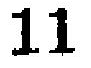11
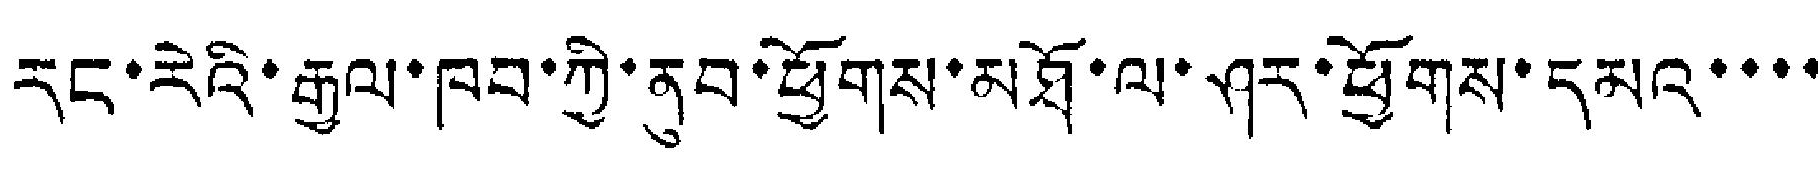རང་རེའི་རྒྱལ་ཁབ་ཀྱི་ནུབ་ཕྱོགས་མཐོ་ལ་ཤར་ཕྱོགས་དམའ་་་་
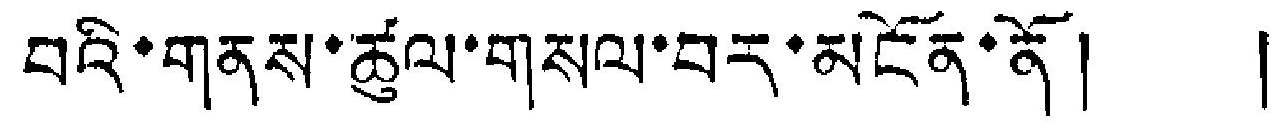བའི་གནས་ཚུལ་གསལ་བར་མངོན་ནོ། །
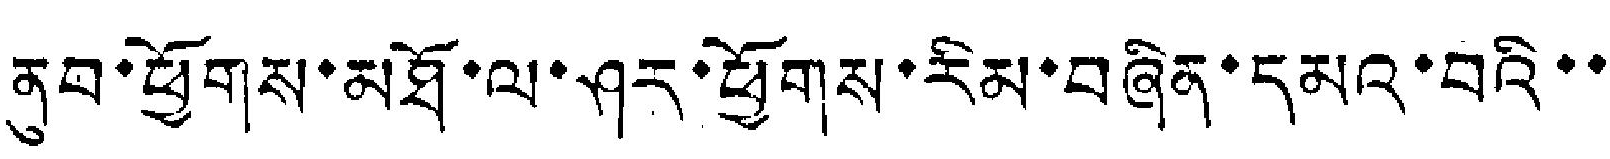ནུབ་ཕྱོགས་མཐོ་ལ་ཤར་ཕྱོགས་རིམ་བཞིན་དམའ་བའི་་
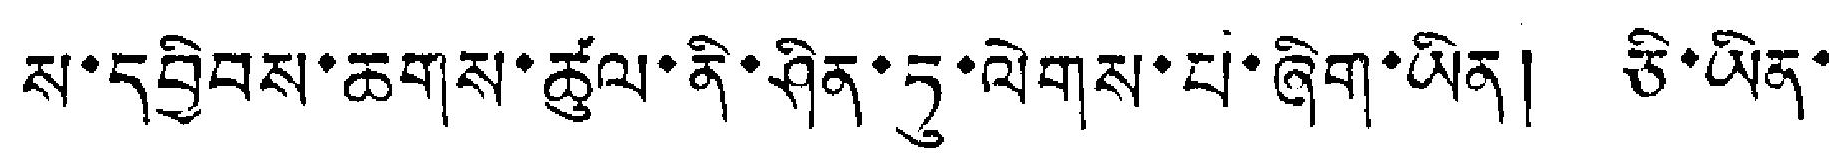ས་དབྱིབས་ཆགས་ཚུལ་ནི་ཤིན་ཏུ་ལེགས་པ་ཞིག་ཡིན། ཅི་ཡིན་
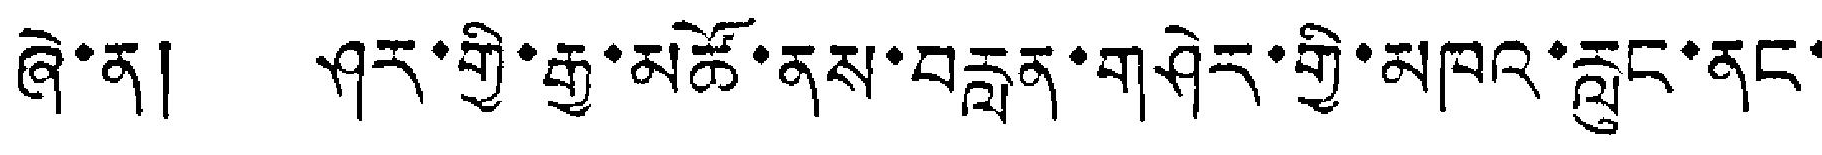ཞེ་ན། ཤར་གྱི་རྒྱ་མཚོ་ནས་བརླན་གཤེར་གྱི་མཁའ་རླུང་ནང་
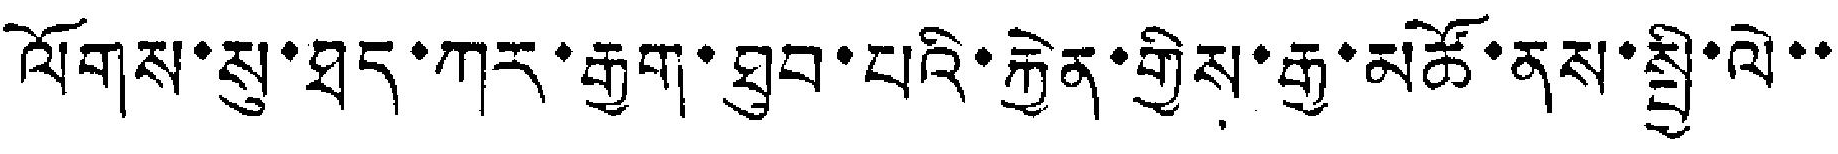ལོགས་སུ་ཐད་ཀར་རྒྱག་ཐུབ་པའི་རྐྱེན་གྱིས་རྒྱ་མཚོ་ནས་སྤྱི་ལེ་་
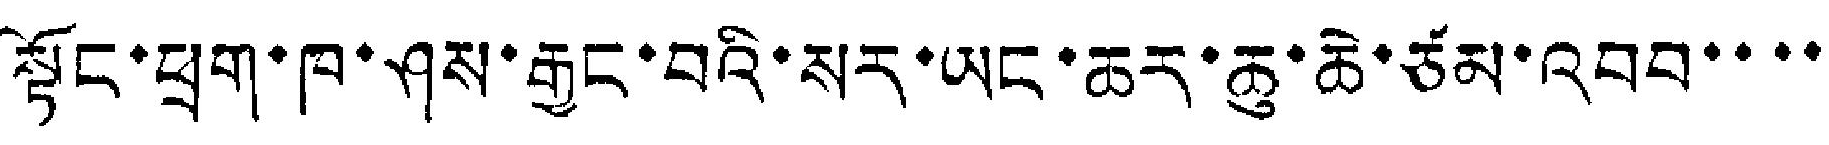སྟོང་ཕྲག་ཁ་ཤས་རྒྱང་བའི་སར་ཡང་ཆར་ཆུ་ཆེ་ཅམ་འབབ་་་་
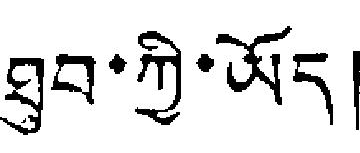ཐུབ་ཀྱི་ཡོད།
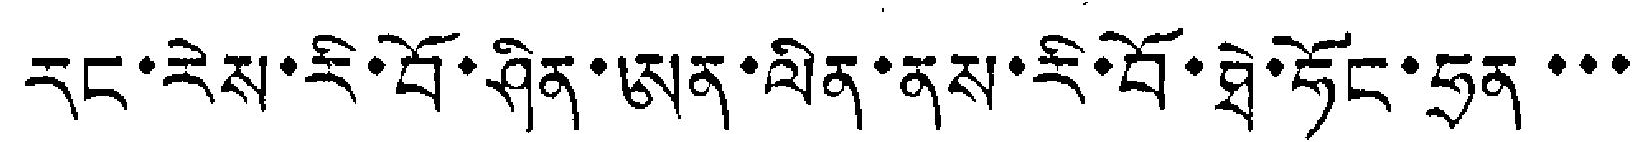རང་རེས་རི་བོ་ཤིན་ཨན་ལིན་ནས་རི་བོ་ཐེ་ཧོང་ཧྲན་་་
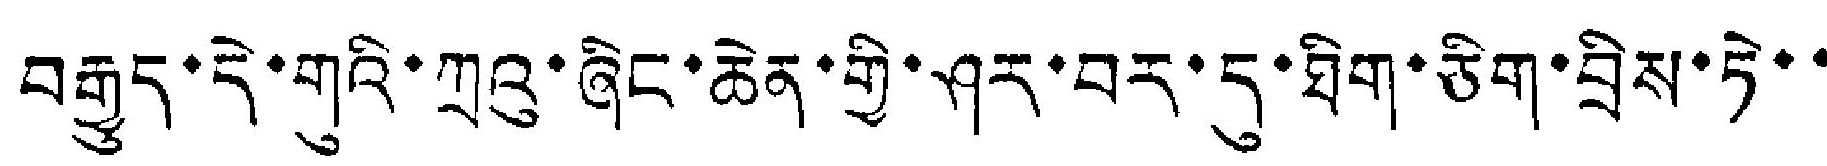བརྒྱུད་དེ་གའི་ཀྲའུ་ཞིང་ཆེན་གྱི་ཤར་བར་དུ་ཐིག་ཅིག་བྲིས་ཏེ་་
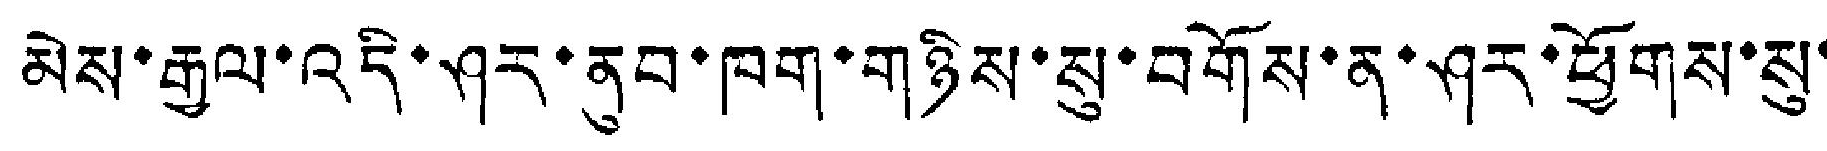མེས་རྒྱལ་འདི་ཤར་ནུབ་ཁག་གཉིས་སུ་བགོས་ན་ཤར་ཕྱོགས་སུ་
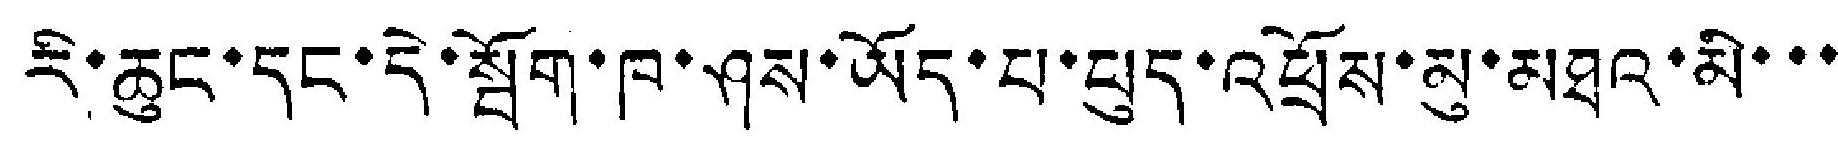རི་ཆུང་དང་དེ་སྦོག་ཁ་ཤས་ཡོད་པ་ཕུད་འཕྲོས་མུ་མཐའ་མི་་་
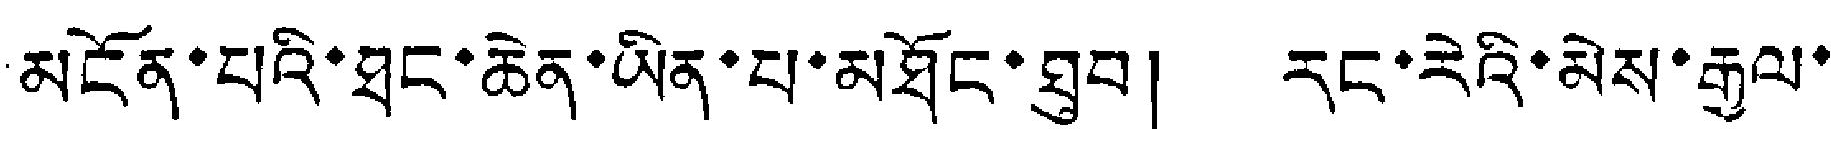མངོན་པའི་ཐང་ཆེན་ཡིན་པ་མཐོང་ཐུབ། རང་རེའི་མེས་རྒྱལ་
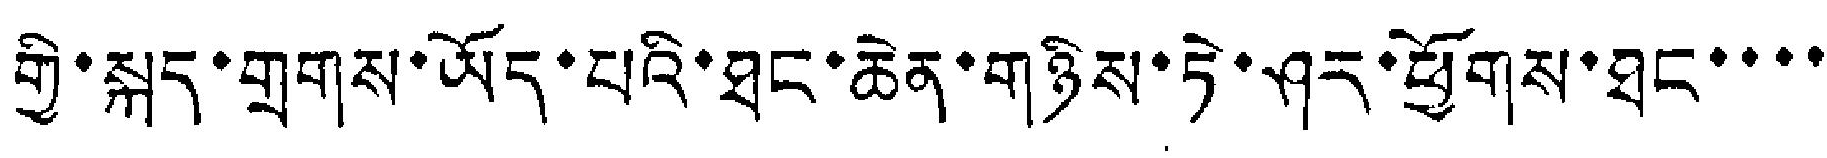གྱི་སྐད་གྲགས་ཡོད་པའི་ཐང་ཆེན་གཉིས་ཏེ་ཤར་ཕྱོགས་ཐང་་་་
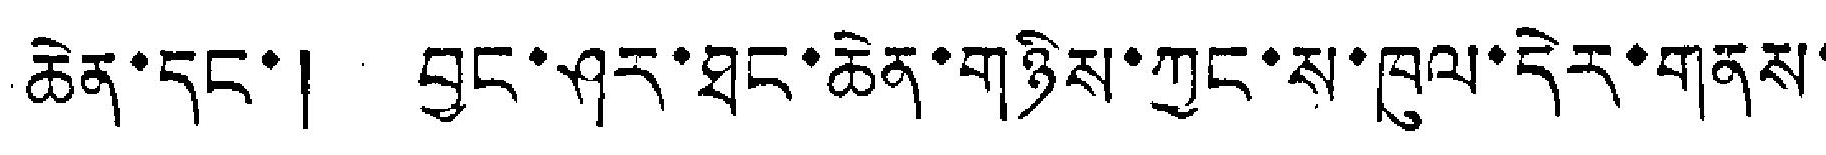ཆེན་དང་། བྱང་ཤར་ཐང་ཆེན་གཉིས་ཀྱང་ས་ཁུལ་དེར་གནས་
